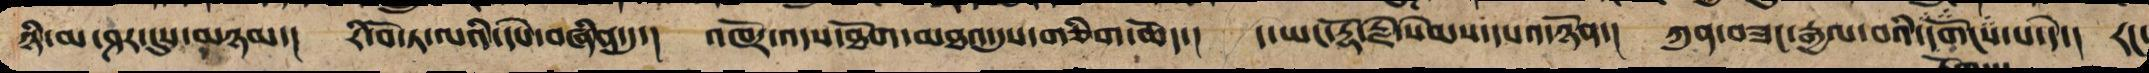ཉི་མ་ཤར་དུས་མཉམ་། རི་བོ་ཏ་ལའི་དཔེ་བཞིན་དུ་། འཁོར་འདས་ཐོག་མཐའ་དུས་གཅིག་ཚོད་། ད་ཡང་རྡོ་རྗེ་སེམས་དཔའ་ཉོན་། ཀུན་བཟང་རྒྱལ་བའི་རྟོགས་པ་དེ་། རང་
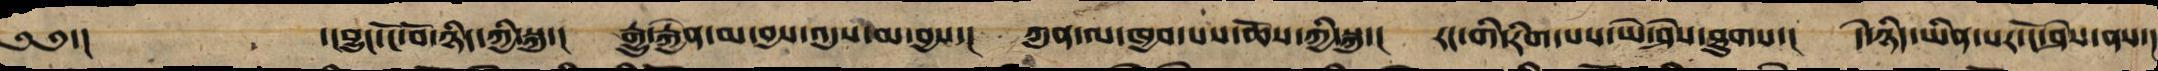༄༅་། ་།བྱུང་ངོ་བོ་ཉིད་ཀྱི་སྐུ་། རྒྱུ་རྐྱེན་མ་བྱས་འདུས་མ་བྱས་། ཀུན་ལ་ཁྱབ་པས་ཆོས་ཀྱི་སྐུ་། རང་གི་རིག་པ་ཡེ་ཤེས་ཐུགས་། དེ་ཉིད་ཡིན་པར་ངོ་ཤེས་ནས་།
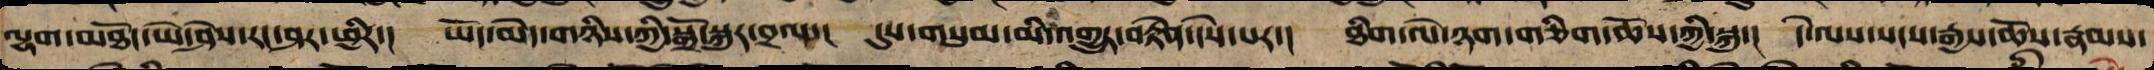ལྷག་མཐོང་ཡེ་ཤེས་རང་ཤར་ཕྱིར་། ཡོད་མེད་གཉིས་ཀྱི་སྒྲོ་སྐུར་བྲལ་། དུས་གསུམ་མི་འགྱུར་བརྟན་ངེས་པར་། ཐིག་ལེ་ཉག་གཅིག་ཆོས་ཀྱི་སྐུ་། དེ་ལས་སངས་རྒྱས་ཆོས་རྣམས་
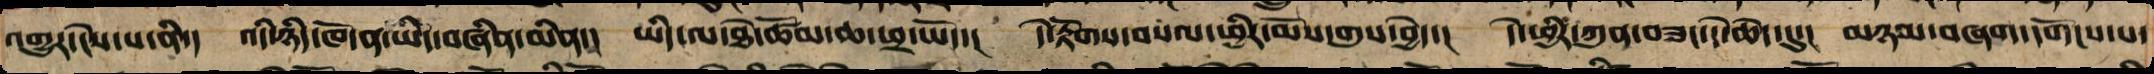འགྱུར་ངེས་པ་ནི་། འདི་ཉིད་ཁོ་ན་ཡིན་ནམ་མིན་། ཡིད་ལ་ཐེ་ཚོམ་ཆ་ཕྲ་ཡོད་། དེ་རྟོག་བསལ་ཕྱིར་མོས་གུས་བྱེད་། དེ་ཕྱིར་ཀུན་བཟང་དེ་ཆེད་དུ་། མཉམ་བཞག་དགོངས་པ་
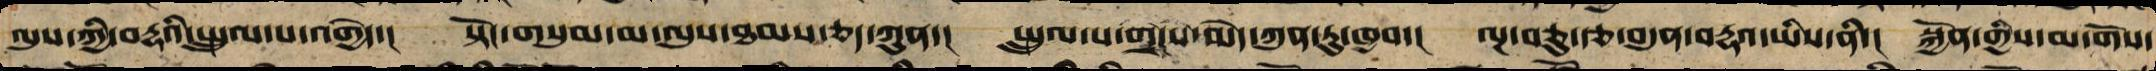ལུས་ཀྱི་བརྡའ་ཡིས་སྤྲུལ་པ་འགྱེད་། སྟོང་གསུམ་མ་ལུས་ཐམས་ཅད་ཀུན་། སྤྲུལ་པ་གྲངས་མེད་ཀུན་ཏུ་ཁྱབ་། ལྔ་བཅུ་རྩ་བདུན་བརྡའ་ཡིས་ནི་། སྐྱོན་གྱིས་མ་གོས་
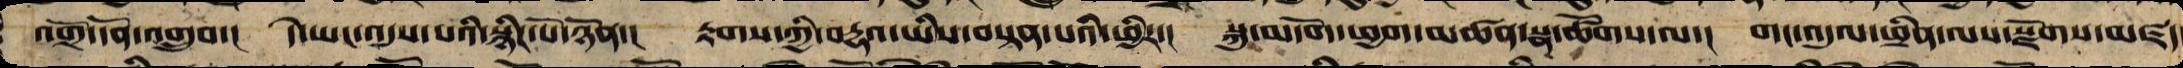འགྲོ་དོན་འགྲུབ་། དེ་ཡང་འདུས་པའི་སྙིང་པོ་ཉོན་། རྟགས་ཀྱི་བརྡའ་ཡིས་བསྟན་པའི་ཕྱིར་། སྐུ་མདོག་ཕྱག་མཚན་སྣ་ཚོགས་ལ་། གང་འདུལ་ཕྲིན་ལས་སྫོགས་མཛད་
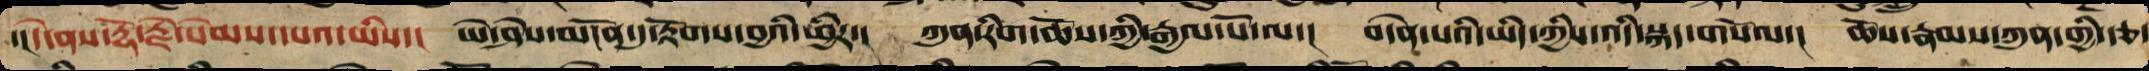་།།དེ་ནས་རྡོ་རྗེ་སེམས་དཔའ་ཡིས་། ཡེ་ཤེས་མངོན་དུ་རྟོགས་བྱའི་ཕྱིར་། ཀུན་རིག་ཆོས་ཀྱི་རྒྱལ་པོ་ལ་། བདེན་པའི་ཡིད་ཀྱིས་འདི་སྐད་གསོལ་། ཆོས་རྣམས་ཀུན་གྱི་རྩ་
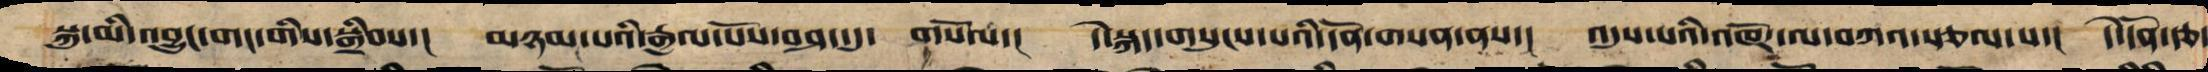སྐུ་མི་འབྱུང་གང་གིས་བསྒྲིབས་། མཉམ་པའི་རྒྱལ་པོས་བཤད་དུ་གསོལ་། དེ་སྐད་གསུངས་པའི་དོན་གསན་ནས་། འདུས་པའི་འཁོར་ལ་བཀའ་སྩལ་པ་། དེ་དོན་རྩ་
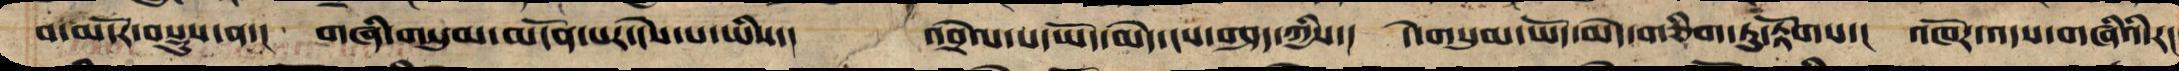བ་མདོར་བསྡུ་ན་། གཞི་གསུམ་མ་ནོར་ངེས་པ་ཡིས་། འབྲེལ་པ་ཡོད་མེད་ངས་བཤད་ཀྱིས་། དེ་གསུམ་ཡོད་མེད་གཅིག་ཏུ་རྟོགས་། འཁོར་འདས་གཞིའི་རང་
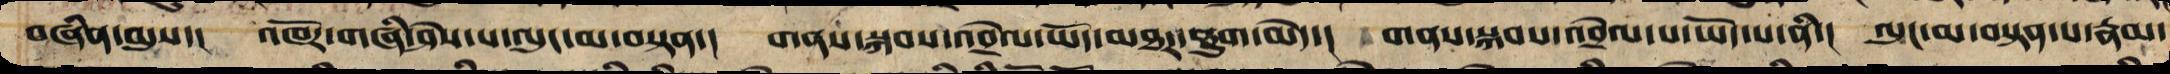བཞིན་ལུས་། འཁོར་གཞི་ཤེས་པ་ལུང་མ་བསྟན་། གནས་སྐབས་འབྲེལ་ཡོད་མཐར་ཐུག་མེད་། གནས་སྐབས་འབྲེལ་བ་ཡོད་པ་ནི་། ལུང་མ་བསྟན་པ་རྣམ་
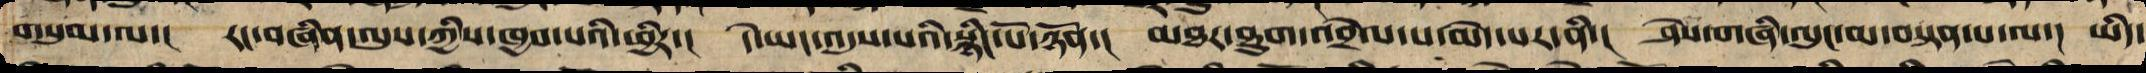གསུམ་ལ་། རང་བཞིན་ལུས་ཀྱིས་ཁྱབ་པའི་ཕྱིར་། ད་ཡང་འདུས་པའི་སྙིང་པོ་ཉོན་། མཐར་ཐུག་འབྲེལ་བ་མེད་པ་ནི་། ཤེས་གཞི་ལུང་མ་བསྟན་པ་ལ་། ཡིད་
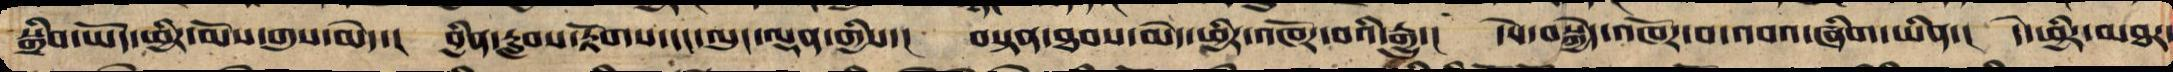སྒྲིབ་ཡོད་ཕྱིར་མོས་གུས་མེད་། བྱིན་རླབས་རྟོགས་དང་ལུང་ལྡན་གྱིས་། བསྟན་ཐབས་མེད་ཕྱིར་འཁོར་བའི་རྒྱུ་། དེས་བསྐྱེད་འཁོར་བ་འབའ་ཞིག་ཡིན་། དེ་ཕྱིར་མཐར་
